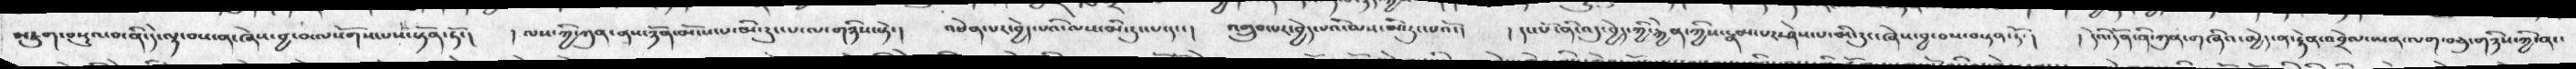མཇུག་བསྡུལ་བ་ནི་དེ་ལྟ་བས་ན་ཞེས་བྱ་བ་ལསོགས་པས་སྟོན་ཏོ་།  ། ལས་ཀྱི་ཀུན་ནས་ཉོན་མོངས་པ་མི་རུང་པ་ལ་གཉིས་སྟེ་།  འཕེན་པར་བྱེད་པའི་ལས་མི་རུང་པ་དང་།  འགྲུབ་པར་བྱེད་པའི་ལས་མི་རུང་པའོ་།  ། དང་པོ་ནི་འདུ་བྱེད་ཀྱི་རྐྱེན་ཀྱིས་རྣམ་པར་ཤེས་པ་མི་རུང་ཞེས་བྱ་བས་བསྟན་ཏོ་།  ། དེའི་དོན་ནི་ཀུན་གཞིའ་མྱེད་ན་རྟེན་འབྲེལ་ཡན་ལག་བཅུ་གཉིས་ཀྱི་ནང་
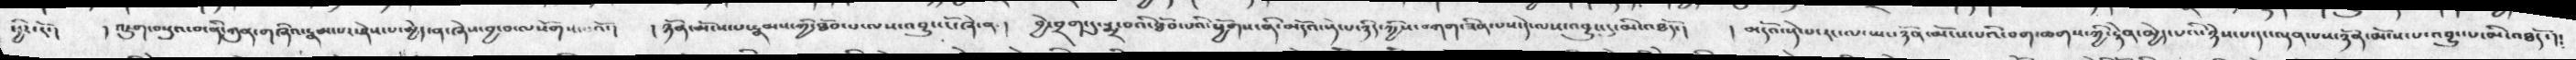ཕྱིར་རོ་།  ། འཇུག་བསུའ་བ་ནི་ཀུན་གཞིའ་རྣམ་པར་ཤེས་པར་མྱེད་ན་ཞེས་བྱ་བ་ལསོགས་པའོ་།  ། ཉོནམོངས་པ་རྣམས་ཀྱི་ཐོབ་པ་ལས་འབྱུང་ངོ་ཞེ་ན་།  བྱེ་བྲག་དུ་སྨྲ་བའི་ཐོབ་པའི་ཕྱོགས་ནི་མདོའ་སྡེ་པ་ཉིད་ཀྱིས་བཀག་ཟིན་པས་དེ་ལས་འབྱུང་དུ་མི་འཐདོ་།  ། མདོའ་སྡེ་པ་རང་ལ་ཡང་ཉོན་མོངས་པའི་བག་ཆགས་ཀྱི་རྟེན་མྱེད་པའི་ཉེས་པ་དང་ལྡན་པས་ཉོན་མོངས་པ་འབྱུང་པ་མི་འཐདོ་།
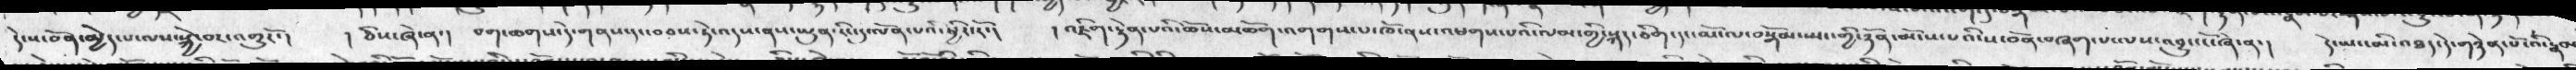དེ་ས་བོན་མྱེད་པ་ལས་སྐྱེ་བར་འགྱུརོ་།  ། ཅིས་ཞེ་ན་།  བག་ཆགས་དེ་གནས་དང་བབས་ཏེ་འདས་ནས་ཡུན་རིང་དུ་ལོན་པའི་ཕྱིར་རོ་།  ། འཇིག་རྟེན་པའི་ཆོས་མཆོག་འགགས་པ་ཁོ་ནས་འཕགས་པའི་ལམ་གྱི་སྐད་ཅིག་དང་མོ་ལ་བསྒོམ་སྤང་གྱི་ཉོན་མོངས་པའི་ས་བོན་བཞག་པ་ལས་འབྱུང་ངོ་ཞེ་ན་།  དེ་ཡང་མི་འཐད་དེ་གཉེན་པོའི་རྣམ
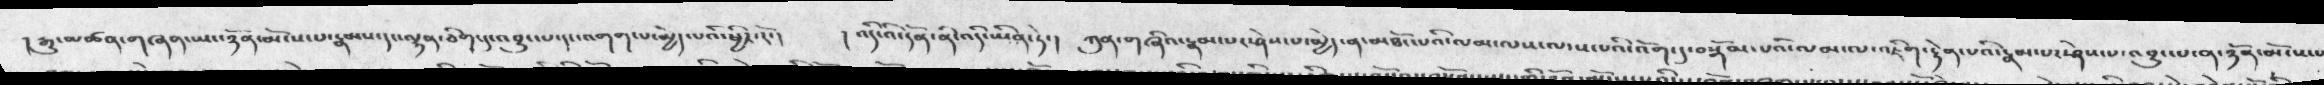། རྒྱུ་མཚན་གཞན་ཡང་ཉོན་མོངས་པ་རྣམས་དང་ལྷན་ཅིག་དུ་འབྱུང་པ་དང་འག་པ་མྱེད་པའི་ཕྱིར་རོ་།  ། འདིའི་དོན་ནོ་འདི་ཡིན་ཏེ་།  ཀུན་གཞིའ་རྣམ་པར་ཤེས་པ་མྱེད་ན་མཐོང་པའི་ལམ་ལས་ལས་པའི་འོག་དུ་བསྒོམ་པའི་ལམ་ལ་འཇིག་རྟེན་པའི་རྣམ་པ་ཤེས་པ་འབྱུང་པ་ན་ཉོན་མོངས་པ་
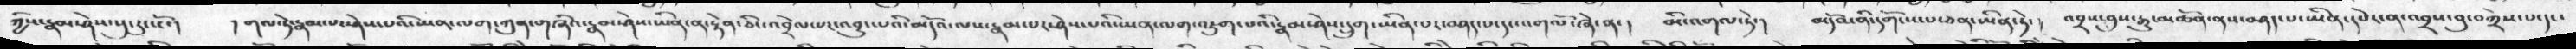ཀྱིས་རྣམ་ཤེས་སུ་རུངསོ་།   ། གལ་ཏེ་རྣམ་པར་ཤེས་པའི་ཡན་ལག་ཀུན་གཞིའ་རྣམ་ཤེས་ཡིན་ན་རྟེན་ཅིང་འབྲེལ་པར་འབྱུང་པའི་མདོའ་ལས་རྣམ་པར་ཤེས་པའི་ཡན་ལག་འཇུག་པའི་རྣམ་ཤེས་དྲུག་ཡིན་པར་བཤད་པ་དང་འགལོ་ཞེ་ན་།   མི་འགལ་ཏེ་།   མདོའ་ནི་དགོངས་པ་ཅན་ཡིན་ཏེ་།  འབྲས་བུས་རྒྱུ་མཆོག་ནས་བཤད་པ་ཡིན་དཔེར་ན་འབྲས་བུ་བགྲེས་པ་དང་
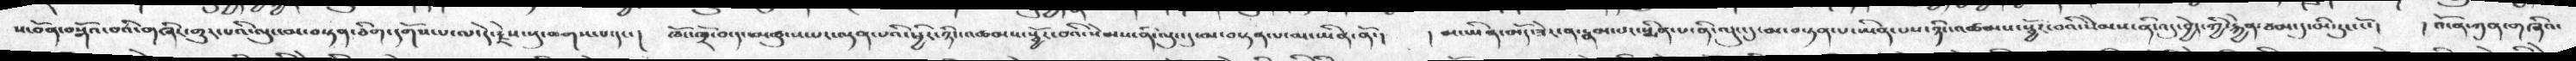ས་བོན་བསྒོའ་བའི་གཞིར་གྱུར་པའི་ལུང་མ་བསྟན་ཅིག་དགོས་པ་ལ་དེ་རྗེས་སུ་ཆགས་པ་དང་།  ཁོང་ཁྲོ་བ་དང་མཚུངས་པར་ལྡན་པའི་ཕྱིར་ཉིད་འཚམས་སྦྱོར་བའི་སེམས་ནི་ལུང་དུ་མ་བསྟན་པ་མ་ཡིན་ནོ་།   ། མ་ཡིན་མདོ་ཟེར་ན་རྣམ་པར་སྨིན་པ་ནི་ལུང་དུ་མ་བསྟན་པ་ཡིན་པས་ཉིང་འཚམས་སྦྱོར་བའི་སེམས་ནི་འདུ་བྱེད་ཀྱི་རྐྱེན་ཙམ་དུ་མི་རུང་ངོ་།    །འོ་ན་ཀུན་གཞིའ་
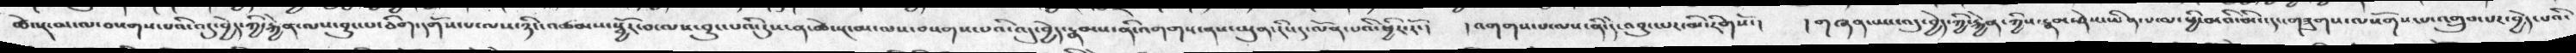ཚེ་སྔ་མ་མ་བསགས་པའི་འདུ་བྱེད་གྱི་རྐྱེན་ལས་བྱུང་པ་ཅིག་དགོས་པ་ལས་ཉིང་འཚམས་སྦྱོར་བ་ལས་བྱུང་པའི་དུས་ན་ཚེ་སྔ་མ་ལས་བསགས་པའི་འདུ་བྱེད་རྣམས་ནི་འགགས་ནས་ཡུན་རིང་དུ་ནལོན་པའི་ཕྱིར་རོ་།   ། འགགས་པ་ལས་ནི་དེ་འབྱུང་ཡང་མི་རིགསོ་།   ། གཞན་ཡང་འདུ་བྱེད་ཀྱིུ་རྐྱེན་ཀྱིས་རྣམ་ཤེས་ཡིན་པ་ལ་ཕྱི་མའི་མིང་དང་གཟུགས་ལསོགས་པ་འགྲུབ་པར་བྱེད་པའི་
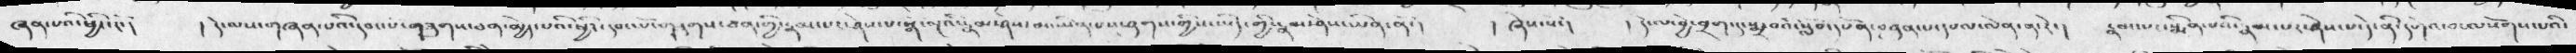ཞན་པའི་ཕྱིར་རོ་།   ། དེ་ལས་གཞན་པའི་དབང་པོ་གཟུགས་ཅན་མྱེད་པའི་ཕྱིར་དབང་པོ་གཟུགས་ཅན་གྱི་རྣམ་པར་ཤེས་པ་སྒོ་ལྔའི་རྣམ་ཤེས་མ་ཡིན་པས་ཤུགས་གྱིས་ཡིད་གྱིས་རྣམ་ཤེས་ཡིན་ནོ་།   ། ཞེས་སོ་།   །  དེ་ལ་བྱེ་བྲག་དུ་སྨྲ་བའི་སློབ་དཔོན་བཙུན་པ་དཔལ་ལེན་ན་རེ་།  རྣམ་པར་སྨིན་པའི་རྣམ་པར་ཤེས་པ་དེ་ནི་དགེའ་བ་ལསོགས་པའི་
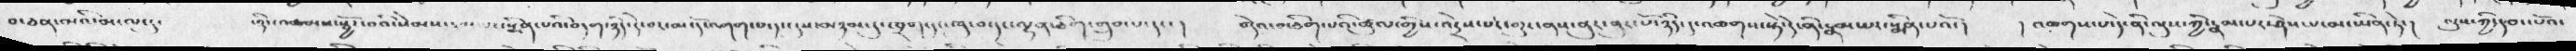བ་ཅན་མའི་མངལ་དུ་     ཉིང་འཚམས་སྦྱོར་བའི་སེམས་ངམ་མ་སྨིན་པའི་བདག་ཉིད་དེ་བར་མ་དོ་འགག་པ་དང་དུས་མཉམ་དུ་ཁྲག་དང་ཁུ་བ་དང་ལྷན་ཅིག་གྲུབ་པ་དང་།   བདེའ་བ་ཅིག་པའི་ཚུལ་གྱིས་འདྲེས་པར་གྱུར་ནས་ནུར་ནུར་པོ་ཉིད་དང་འཆགས་སྟེ་དེ་ནི་རྣམ་པར་སྨིན་པའོ་།  ། འཆགས་པ་དེ་ནི་ལུས་ཀྱི་རྣམ་པར་ཤེས་པ་མ་ཡིན་ཏེ་།   ལུས་ཀྱི་དབང་པོའ
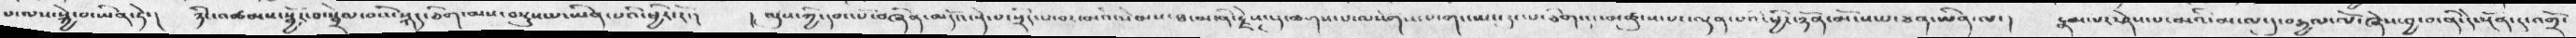པ་ལས་སྐྱེ་བ་ཡིན་ཏེ་།    ཉིང་འཚམས་སྦྱོར་བ་སྦྲེམ་བའི་སྐད་ཅིག་མས་བསྡུས་པ་ཡིན་པའི་ཕྱིར་རོ་།   ། ལུས་ཀྱི་དབང་པོ་བཞིན་མདོའ་སྡེ་པ་སྲིད་པ་བར་མའི་སེམས་ཐ་མ་ནི་རྗེས་སུ་ཆགས་པ་ལསོགས་པ་གང་ཡང་དད་པ་ཅིག་དང་མཚུངས་པར་ལྡན་པའི་ཕྱིར་ཉོན་མོངས་པ་ཅན་ཡིན་ལ་།     རྣམ་པར་ཤེས་པ་མའི་མངལ་དུ་བརྒྱལ་ལོ་ཞེས་བྱ་བ་ནི་དེ་སྔོན་དུ་འགྲོ་
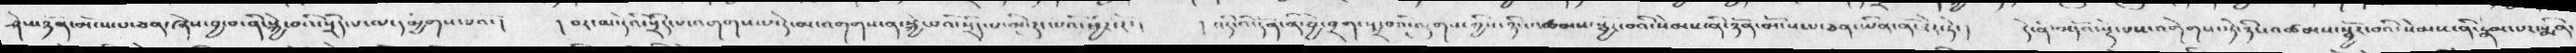ཤེས་ཉོན་མོངས་པ་ཅན་ཞེས་བྱ་བ་ནི་སྐྱེ་བའི་སྲིད་པ་ལ་དམྱིགས་པའོ་།   ། བར་མ་དེའི་སྲིད་པ་འགགས་པ་དེ་མ་འགགས་ན་སྐྱེ་བའི་སྲིད་པ་མི་རུང་པའི་ཕྱིར་རོ་།   ། འདི་འི་དོན་ནི་བྱེ་བྲག་སྨྲ་བའི་ལུགས་ཀྱིས་ཉིང་འཚམས་སྦྱར་བའི་སེམས་ནི་ཉོན་མོངས་པ་ཅན་ཡིན་ནོ་ཟེར་ཏེ་།   དེ་ནི་མདོའ་སྡེ་པས་འགོགས་སྟེ་ཉིང་འཚམས་སྦྱོར་བའི་སེམས་ནི་རྣམ་པར་སྨིན་
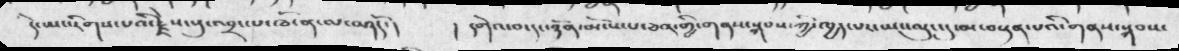དེ་ཡང་རིགས་པའི་རྗེས་སུ་འབྲང་པ་ཁོ་ན་ལ་བཤདོ་།   ། དགེའ་བ་དང་ཉོན་མོངས་པ་ཅན་གྱི་གནསསྐབས་ཀྱི་ཁྱད་པར་ཡང་ལུང་དུ་མ་བསྟན་པའི་གནས་སྐབས་
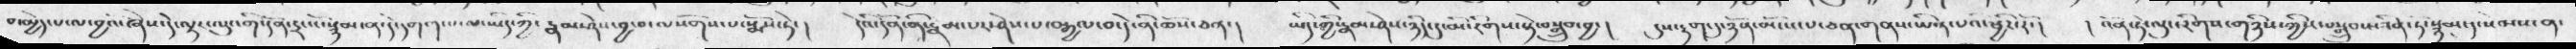བ་མྱེད་པ་ལ་བྱའི་ཞེས་དེ་ལྟར་ལུང་གི་དོན་དྲངསོ་སྙམ་ན་དེ་ནི་དགགས་པ་ཡིད་ཀྱི་རྣམ་ཤེས་བྱ་བ་ལསོགས་པ་སྨོས་ཏེ་།  དེའི་དོན་ནི་རྣམ་པར་ཤེས་པ་བརྒྱལ་བ་དེ་ནི་ཆོས་ཅན་།   ཡིད་ཀྱི་རྣམ་ཤེས་ཉིད་དུ་མི་རིགས་སྟེ་བསྒྲུབ་བྱ་།   དུས་རྟག་དུ་ཉོན་མོངས་པ་ཅན་གནས་ཡིན་པའི་ཕྱིར་རོ་།  ། འོན་ཏེ་ལུང་རིགས་གཉིས་ཀྱིས་བསྒྲུབས་ཟིན་ཏེ་སྙམ་དུ་སེམས་ན་
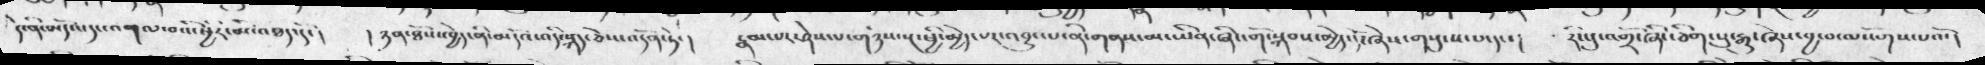དེ་ནི་མདོའ་དང་འགལ་བའི་ཕྱིར་མི་འཐད་དེ་།    །  ཉན་ཐོས་ཁྱེད་ནི་མདོའ་འདི་སྐད་ཅེས་འདོན་ཏེ་།   རྣམ་པར་ཤེས་པ་གཉིས་སྔ་ཕྱི་མྱེད་པར་འབྱུང་པ་ནི་གནས་མ་ཡིན་ཞིང་གོ་སྐབས་མྱེད་དོ་ཞེས་གསུངས་པ་དང་།   རིང་དུ་འགྲོ་ཞིང་ཅིག་པུ་རྒྱུ་ཞེས་བྱ་ལསོགས་པའོ་།
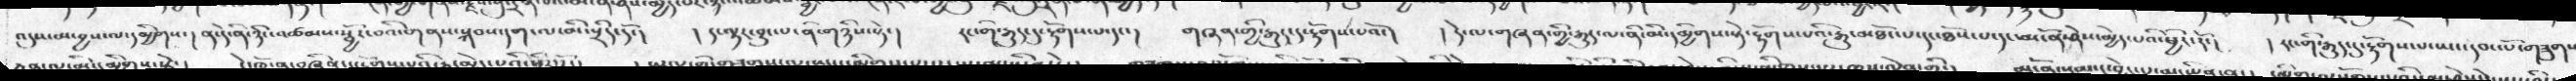འདུས་མ་བྱས་ལ་དམྱིགས་།  ན་དེ་ནི་ཉིང་འཚམས་སྦྱོར་བའི་གནས་སྐབས་དག་ལ་མི་སྲིད་དོ་།  ། ད་ལྟར་བྱུང་པ་ནི་གཉིས་སྟེ་།  རང་གི་རྒྱུད་དུ་རྟོགས་པ་དང་།  གཞན་གྱི་རྒྱུད་དུ་རྟོགས་པའོ།  ། དེ་ལ་གཞན་གྱི་རྒྱུད་ལ་ནི་མ་དམྱིགས་སྟེ་རྟོགས་པའི་རྒྱུ་མཐོང་པ་དང་ཐོས་པ་དང་མངོས་ཤེས་མྱེད་པའི་ཕྱིར་རོ་།  ། རང་གི་རྒྱུད་དུ་རྟོགས་པ་ཡང་དབང་པོ་གཟུགས
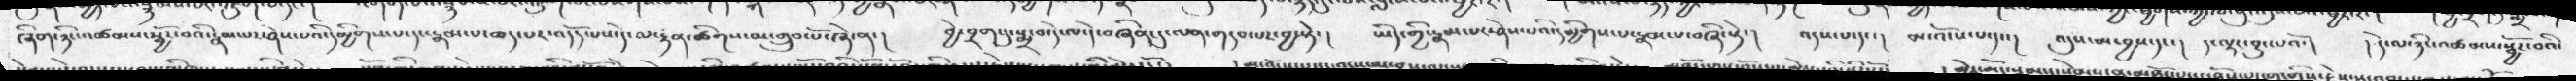ཞིག་ཉིང་འཚམས་སྦྱོར་བའི་རྣམ་པར་ཤེས་པའི་དམྱིགས་པ་དང་རྣམ་པ་ཆད་པར་འདོད་པས་དེ་ལ་རྟན་ཚིགས་མ་གྲུབ་པོ་ཞེ་ན་།  བྱེ་བྲག་དུ་སྨྲ་བ་དེ་ལ་དེ་བཞིན་དུ་ལན་གདབ་པར་བྱ་སྟེ་།  ཡིད་གྱི་རྣམ་པར་ཤེས་པའི་དམྱིགས་པ་རྣམ་པ་བཞི་སྟེ་།  འདས་པ་དང་།  མ་འོངས་པ་དང་།  འདུས་མ་བྱས་དང་།   ད་ལྟར་བྱུང་པའོ་།  ། དེ་ལ་ཉིང་འཚམས་སྦྱོར་བའི་
